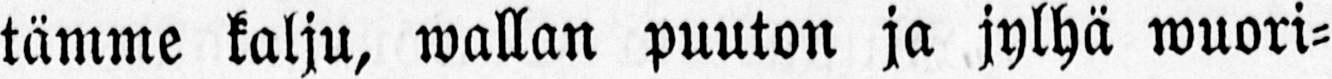tämme kalju, wallan puuton ja jylhä wuori-
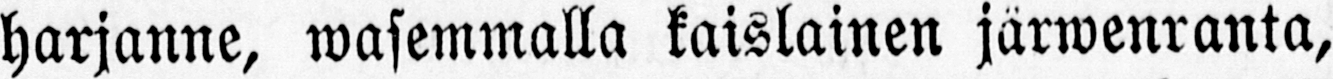harjanne, wasemmalla kaislainen järwenranta,
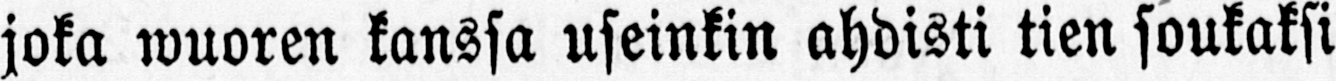joka wuoren kanssa useinkin ahdisti tien soukaksi
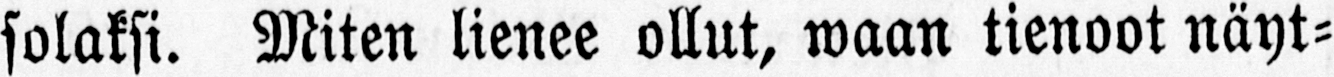solaksi. Miten lienee ollut, waan tienoot näyt-
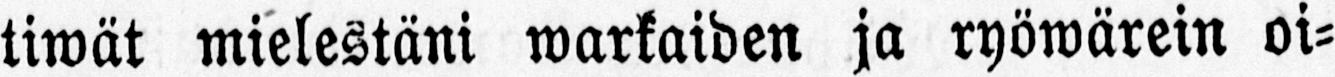tiwät mielestäni warkaiden ja ryöwärein oi-
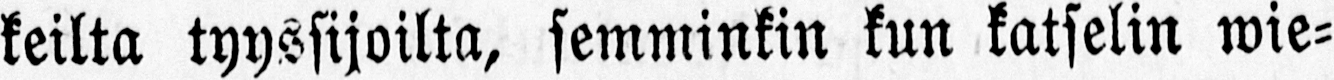keilta tyyssijoilta, semminkin kun katselin wie-
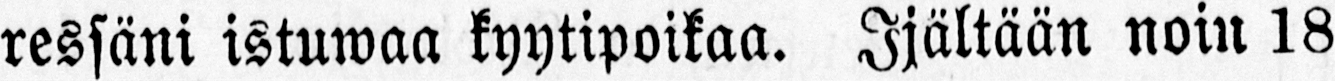ressäni istuwaa kyytipoikaa. Ijältään noin 18
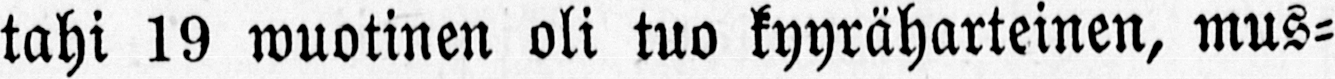tahi 19 wuotinen oli tuo kyyräharteinen, mus-
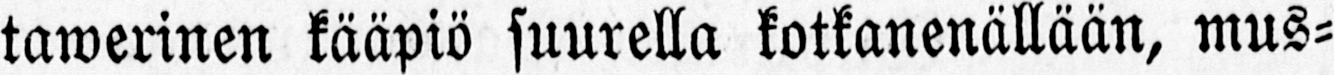tawerinen kääpiö suurella kotkanenällään, mus-
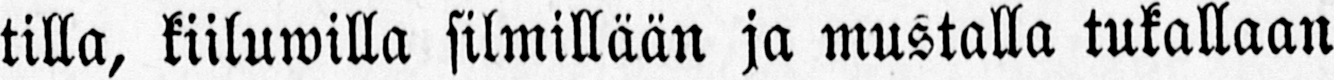tilla, kiiluwilla silmillään ja mustalla tukallaan
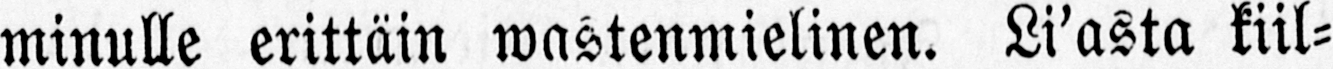minulle erittäin wastenmielinen. Li’asta kiil-
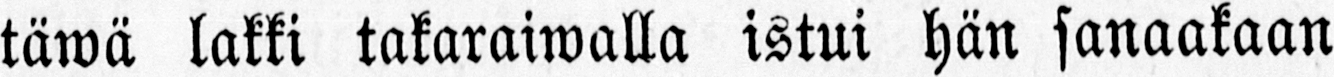täwä lakki takaraiwalla istui hän sanaakaan
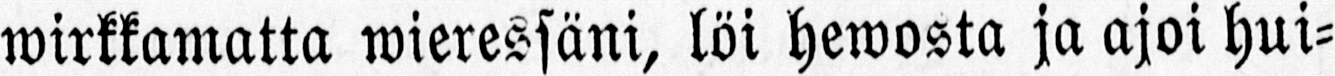wirkkamatta wieressäni, löi hewosta ja ajoi hui-
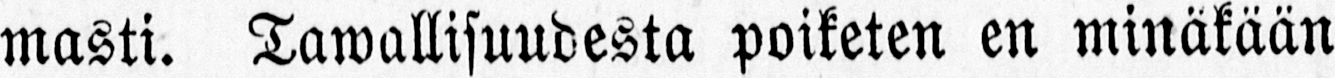masti. Tawallisuudesta poiketen en minäkään
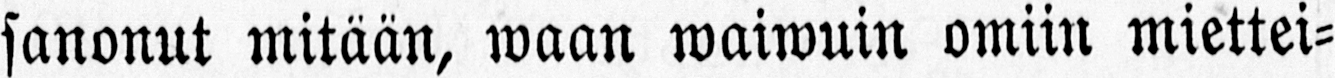sanonut mitään, waan waiwuin omiin miettei-
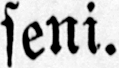seni.
